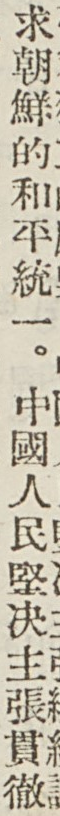求朝鮮的和平統一。中國人民堅決主張貫徹
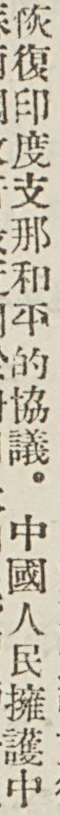恢復印度支那和平的協議。中國人民擁護中
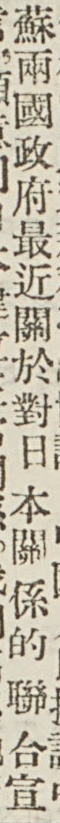蘇兩國政府最近關於對日本關 係的 聯 合宣
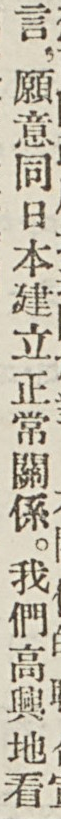言，願意同日本建立正常關係。我們高興地看
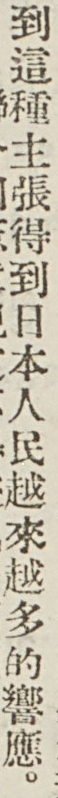到這種主張得到日本人民越來越多的響應。
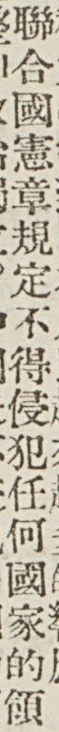聯合國憲章規定不得侵犯任何國家的領
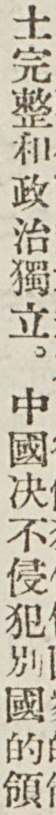土完整和政治獨立。中國絕不侵犯別國的領
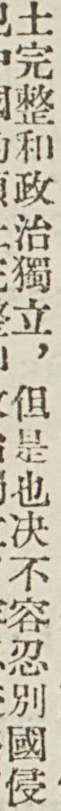土完整和政治獨立，但是也絕不容忍別國侵
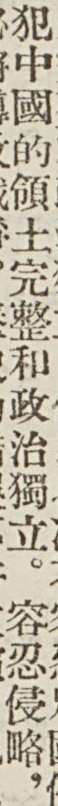犯中國的領土完整和政治獨立。容忍侵略，
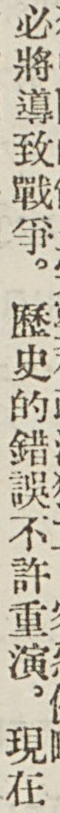比將導致戰爭。歷史的錯誤不許重演。現在
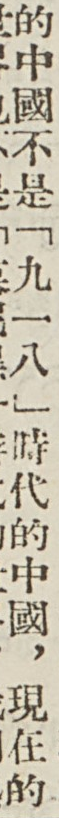的中國不是「九一八」時代的中國，現在的
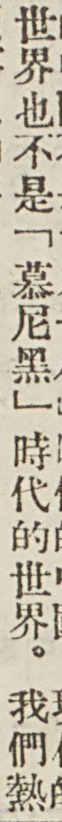世界也不是「慕尼黑」時代的世界。我們熱
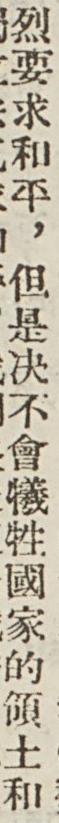烈要求和平，但是絕不會犧牲國家的領土和
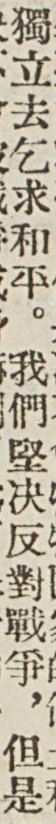獨立去乞求和平。我們堅決反對戰爭，但是
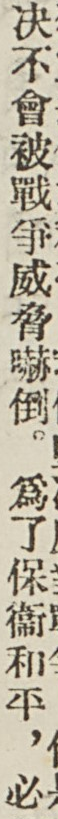絕不會被戰爭威脅嚇倒。爲了保衛和平，必
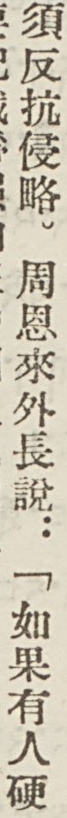須反抗侵略。周恩來外長說：「如果有人硬
